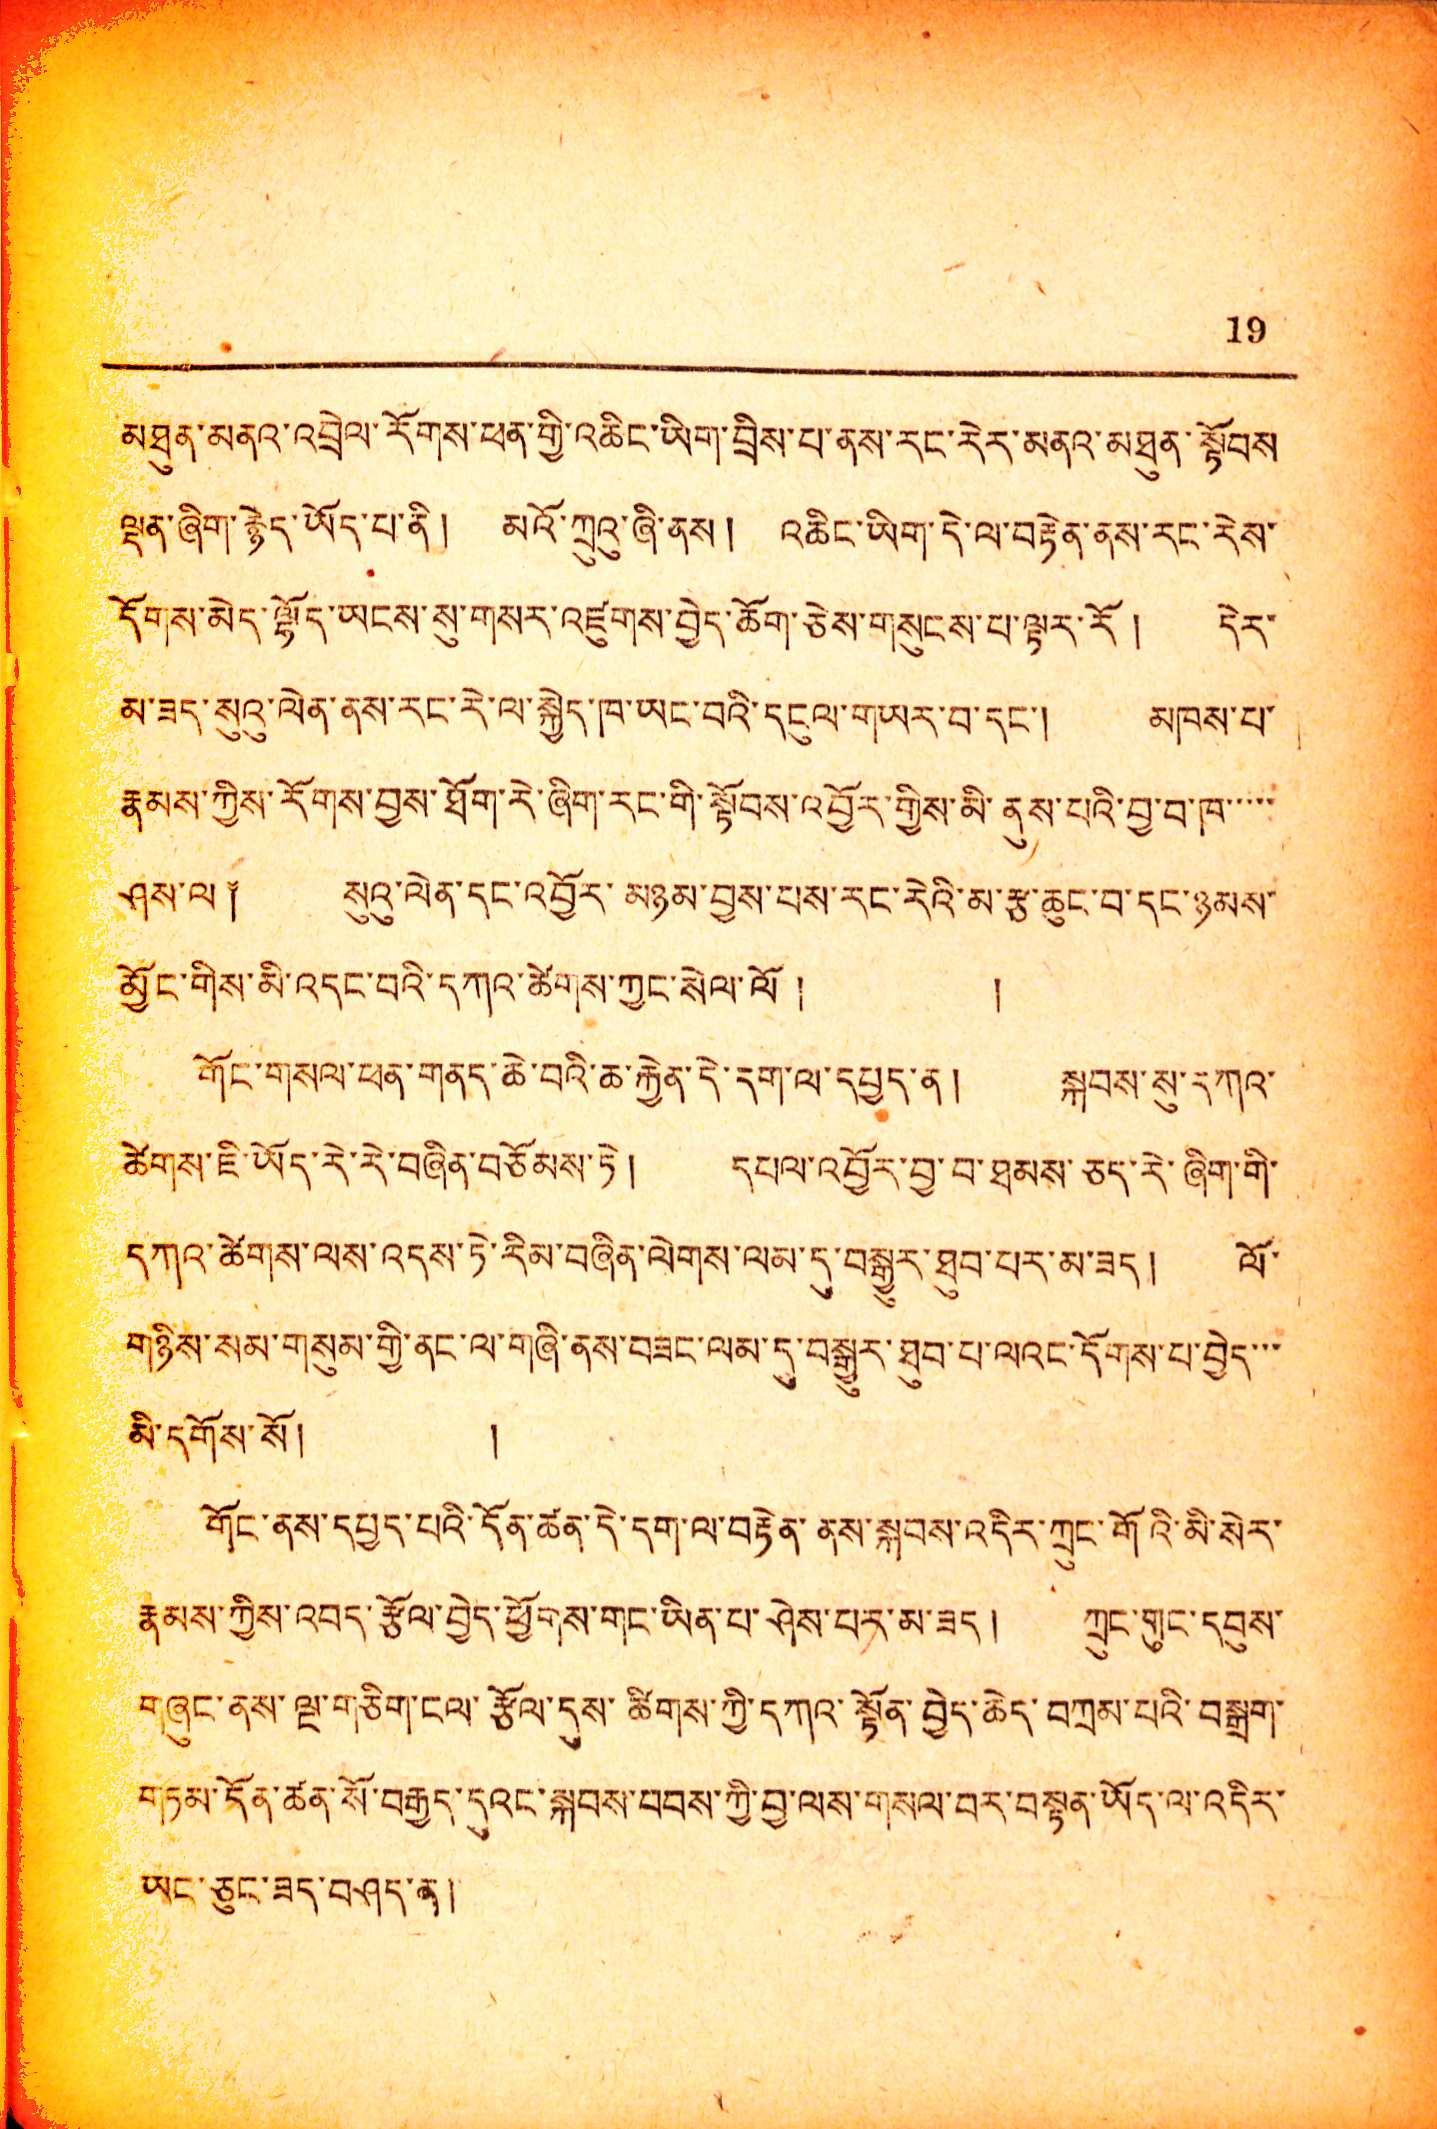19
མཐུན་མནའ་འབྲེལ་རོགས་ཕན་གྱི་འཆིང་ཡིག་བྲིས་པ་ནས་རང་རེར་མནའ་མཐུན་སྟོབས
ལྡན་ཞིག་རྙེད་ཡོད་པ་ནི ། མའོ་ཀྲུའུ་ཞི་ནས ། འཆིང་ཡིག་དེ་ལ་བརྟེན་ནས་རང་རེས་
དོགས་མེད་ལྷོད་ཡངས་སུ་གསར་འཛུགས་བྱེད་ཆོག་ཅེས་གསུངས་པ་ལྟར་རོ ། དེར་
མ་ཟད་སུའུ་ལེན་ནས་རང་རེ་ལ་སྐྱེད་ཁ་ཡང་བའི་དངུལ་གཡར་བ་དང་། མཁས་པ་
རྣམས་ཀྱིས་རོགས་བྱས་ཐོག་རེ་ཞིག་རང་གི་སྟོབས་འབྱོར་གྱིས་མི་ནུས་པའི་བྱ་བ་ཁ་་་་་
ཤས་ལ ༐ སུའུ་ལེན་དང་འབྱོར་མཉམ་བྱས་པས་རང་རེའི་མ་རྩ་ཆུང་བ་དང་ཉམས་
མྱོང་གིས་མི་འདང་བའི་དཀའ་ཚེགས་ཀྱང་སེལ་ལོ ། །
གོང་གསལ་ཕན་གནད་ཆེ་བའི་ཆ་རྐྱེན་དེ་དག་ལ་དཔྱད་ན ། སྐབས་སུ་དཀའ་
ཚེགས་ཇི་ཡོད་རེ་རེ་བཞིན་བཅོམས་ཏེ ། དཔལ་འབྱོར་བྱས་བ་ཐམས་ཅད་རེ་ཞིག་གི་
དཀའ་ཚེགས་ལས་འདས་ཏེ་རིམ་བཞིན་ལེགས་ལམ་དུ་བསྒྱུར་ཐུབ་པར་མ་ཟད ། ལོ་
གཉིས་སམ་གསུམ་གྱི་ནང་ལ་བཞི་ནས་བཟང་འམ་དུ་བསྒྱུར་ཐུབ་པ་ལའང་དོགས་པ་བྱེད་་་
མི་དགོས་སོ ། །
གོང་ནས་དཔྱད་པའི་དོན་ཚན་དེ་དག་ལ་བརྟེན་ནས་སྐབས་འདིར་ཀྲུང་གོའི་མི་སིར་
རྣམས་ཀྱིས་འབད་རྩོལ་བྱེད་ཕྱོགས་གང་ཡིན་པ་ཤེས་པར་མ་ཟད ། ཀྲུང་གུང་དབུས་
བཞུང་ནས་ལྔ་གཅིག་ངལ་རྩོལ་དུས་ཚིགས་ཀྱི་དཀའ་སྟོན་བྱེད་ཆེད་བཀྲམ་པའི་བསྒྲག་
གཏམ་དོན་ཚན་སོ་བརྒྱད་དུའང་སྐབས་བབས་ཀྱི་བྱ་ལས་གསལ་བར་བསྟན་ཡོད་ལ་འདིར་
ཡང་ཅུང་ཟད་བཤད་ན།
